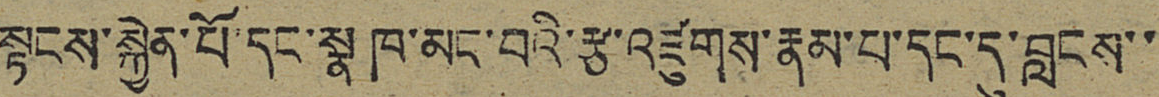སྟངས་སྐྱེན་པོ་དང་སྣ་ཁ་མང་བའི་རྩ་འཛུགས་རྣམ་པ་དང་དུ་བླངས་་
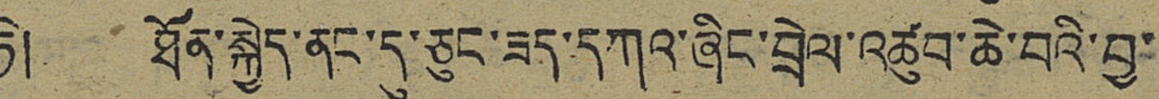ཏེ། ཐོན་སྐྱེད་ནང་དུ་ཅུང་ཟད་དཀའ་ཞིང་བྲེལ་འཚུབ་ཆེ་བའི་བྱ་
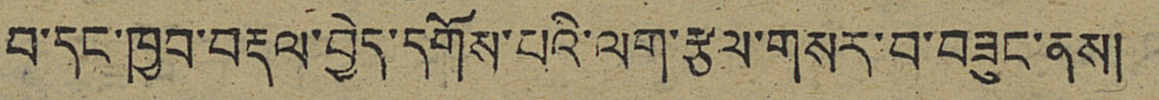བ་དང་ཁྱབ་བརྡལ་བྱེད་དགོས་པའི་ལག་རྩལ་གསར་བ་བཟུང་ནས།
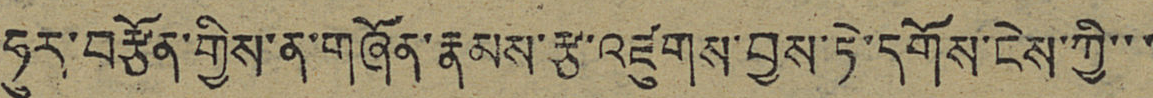ཧུར་བརྩོན་གྱིས་ན་གཞོན་རྣམས་རྩ་འཛུགས་བྱས་ཏེ་དགོས་ངེས་ཀྱི་་་
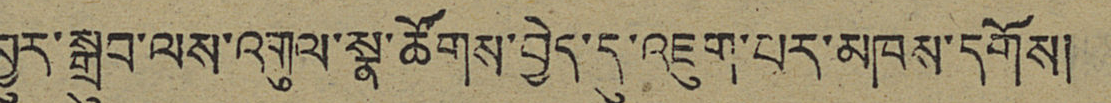མྱུར་སྒྲུབ་ལས་འགུལ་སྣ་ཚོགས་བྱེད་དུ་འཇུག་པར་མཁས་དགོས།
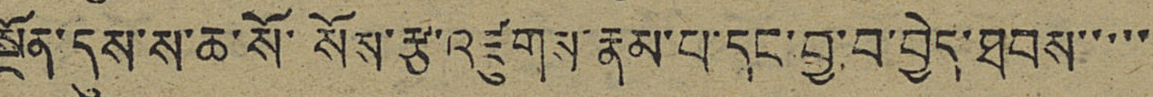སྔོན་དུས་ས་ཆ་སོ་སོས་རྩ་འཛུགས་རྣམ་པ་དང་བྱ་བ་བྱེད་ཐབས་་་་་
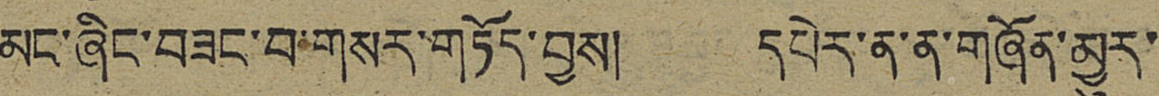མང་ཞིང་བཟང་བ་གསར་གཏོད་བྱས། དཔེར་ན་ན་གཞོན་མྱུར་
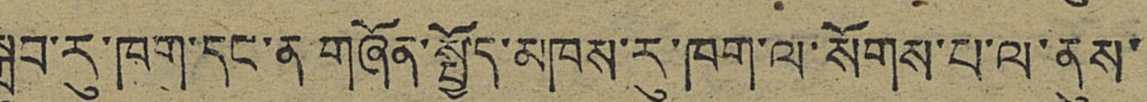སྒྲུབ་རུ་ཁག་དང་ན་གཞོན་སྤྱོད་མཁས་རུ་ཁག་ལ་སོགས་པ་ལ་ནུས་
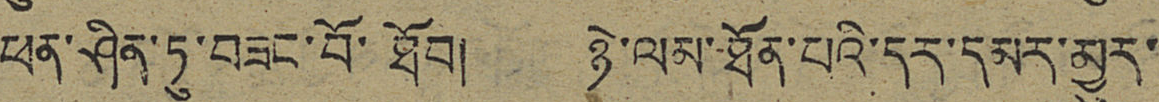ཕན་ཤིན་ཏུ་བཟང་བོ་ཐོབ། ཉེ་ལམ་ཐོན་པའི་དར་དམར་མྱུར་
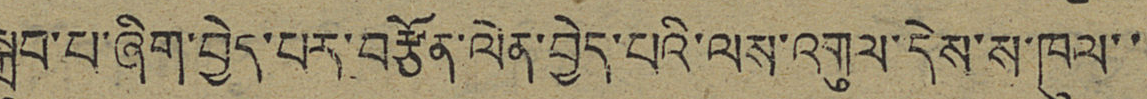སྒྲུབ་པ་ཞིག་བྱེད་པར་བརྩོན་ལེན་བྱེད་པའི་ལས་འགུལ་དེས་ས་ཁུལ་་
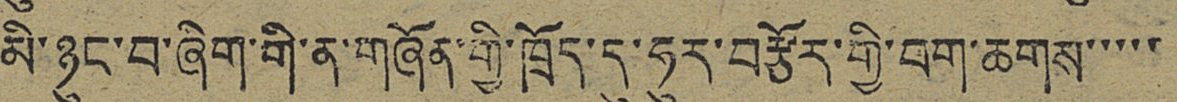མི་ཉུང་བ་ཞིག་གི་ན་གཞོན་གྱི་ཁྲོད་དུ་ཧུར་བརྩོར་གྱི་བག་ཆགས་་་་་
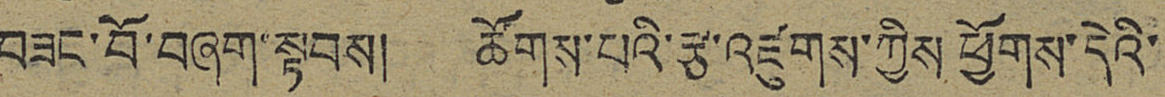བཟང་བོ་བཞག་སྟབས། ཚོགས་པའི་རྩ་འཛུགས་ཀྱིས་ཕྱོགས་དེའི་
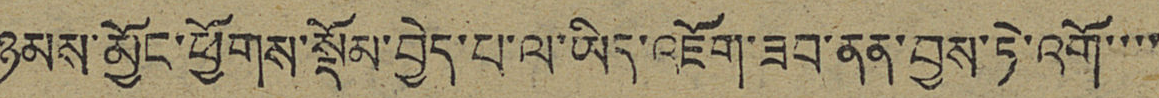ཉམས་མྱོང་ཕྱོགས་སྡོམ་བྱེད་པ་ལ་ཡིད་འཇོག་ཟབ་ནན་བྱས་ཏེ་འགོ་་་་
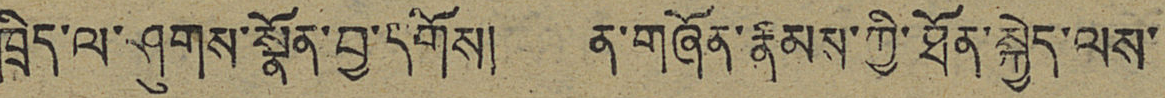ཁྲིད་ལ་ཤུགས་སྣོན་བྱ་དགོས། ན་གཞོན་རྣམས་ཀྱི་ཐོན་སྐྱེད་ལས་
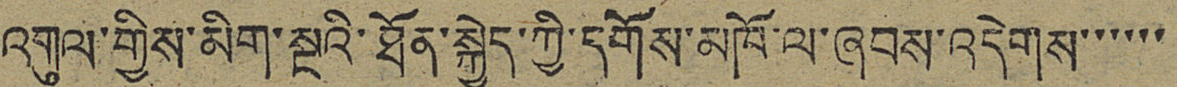འགུལ་གྱིས་མིག་སྔའི་ཐོན་སྐྱེད་ཀྱི་དགོས་མཁོ་ལ་ཞབས་འདེགས་་་་་་
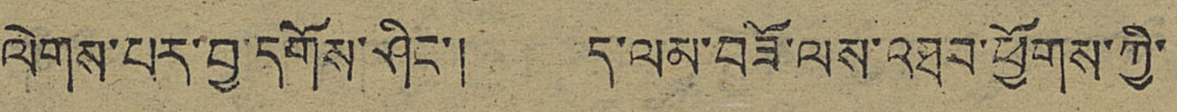ལེགས་པར་བྱ་དགོས་ཤིང་། ད་ལམ་བཟོ་ལས་འཐབ་ཕྱོགས་ཀྱི་
